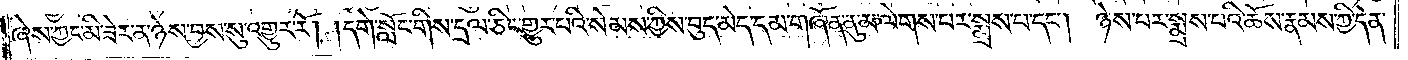ཞེས་ཀྱང་མི་ཟེར་ན་ཉེས་བྱས་སུ་འགྱུར་རོ། །དགེ་སློང་གིས་དྲལ་ཅིང་གྱུར་པའི་སེམས་ཀྱིས་བུད་མེད་དམ་གཞོན་ནུ་མ་ལེགས་པར་སྨྲས་པ་དང༌། ཉེས་པར་སྨྲས་པའི་ཆོས་རྣམས་ཀྱི་དོན་
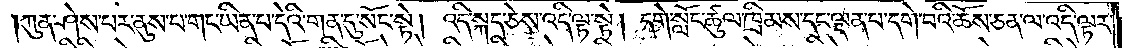ཀུན་ཤེས་པར་ནུས་པ་གང་ཡིན་པ་དེའི་གན་དུ་སོང་སྟེ། འདི་སྐད་ཅེས་འདི་ལྟ་སྟེ། དགེ་སློང་ཚུལ་ཁྲིམས་དང་ལྡན་པ་དགེ་བའི་ཆོས་ཅན་ལ་འདི་ལྟར་
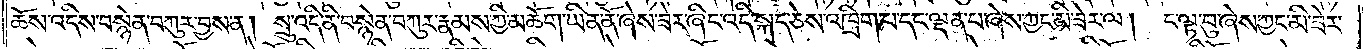ཆོས་འདི་བསྙེན་བཀུར་བྱས་ན། སྲུ་འདི་ནི་བསྙེན་བཀུར་རྣམས་ཀྱི་མཆོག་ཡིན་ནོ་ཞེས་ཟེར་ཞིང་འདི་སྐད་ཅེས་འཁྲིག་པ་དང་ལྡན་པ་ཞེས་ཀྱང་མི་ཟེར་ལ། ང་ལྟ་བུ་ཞེས་ཀྱང་མི་ཟེར་
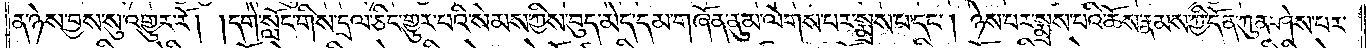ན་ཉེས་བྱས་སུ་འགྱུར་རོ། །དགེ་སློང་གིས་དྲལ་ཅིང་གྱུར་པའི་སེམས་ཀྱིས་བུད་མེད་དམ་གཞོན་ནུ་མ་ལེགས་པར་སྨྲས་པ་དང༌། ཉེས་པར་སྨྲས་པའི་ཆོས་རྣམས་ཀྱི་དོན་ཀུན་ཤེས་པར་
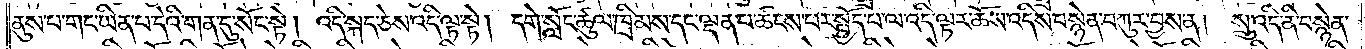ནུས་པ་གང་ཡིན་པ་དེའི་གན་དུ་སོང་སྟེ། འདི་སྐད་ཅེས་འདི་ལྟ་སྟེ། དགེ་སློང་ཚུལ་ཁྲིམས་དང་ལྡན་པ་ཚངས་པར་སྤྱོད་པ་ལ་འདི་ལྟར་ཆོས་འདིས་བསྙེན་བཀུར་བྱས་ན། སྲུ་འདི་ནི་བསྙེན་
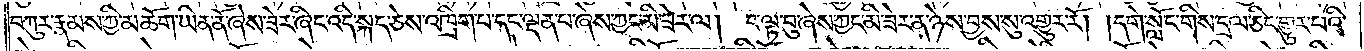བཀུར་རྣམས་ཀྱི་མཆོག་ཡིན་ནོ་ཞེས་ཟེར་ཞིང་འདི་སྐད་ཅེས་འཁྲིག་པ་དང་ལྡན་པ་ཞེས་ཀྱང་མི་ཟེར་ལ། ང་ལྟ་བུ་ཞེས་ཀྱང་མི་ཟེར་ན་ཉེས་བྱས་སུ་འགྱུར་རོ། །དགེ་སློང་གིས་དྲལ་ཅིང་གྱུར་པའི་
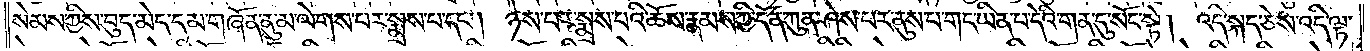སེམས་ཀྱིས་བུད་མེད་དམ་གཞོན་ནུ་མ་ལེགས་པར་སྨྲས་པ་དང༌། ཉེས་པར་སྨྲས་པའི་ཆོས་རྣམས་ཀྱི་དོན་ཀུན་ཤེས་པར་ནུས་པ་གང་ཡིན་པ་དེའི་གན་དུ་སོང་སྟེ། འདི་སྐད་ཅེས་འདི་ལྟ་
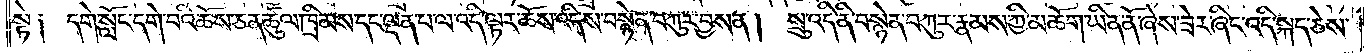སྟེ༑ དགེ་སློང་དགེ་བའི་ཆོས་ཅན་ཚུལ་ཁྲིམས་དང་ལྡན་པ་ལ་འདི་ལྟར་ཆོས་འདིས་བསྙེན་བཀུར་བྱས་ན།<gap>སྲུ་འདི་ནི་བསྙེན་བཀུར་རྣམས་ཀྱི་མཆོག་ཡིན་ནོ་ཞེས་ཟེར་ཞིང་འདི་སྐད་ཅེས་
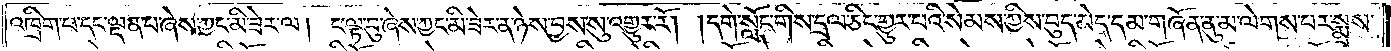འཁྲིག་པ་དང་ལྡན་པ་ཞེས་ཀྱང་མི་ཟེར་ལ། ང་ལྟ་བུ་ཞེས་ཀྱང་མི་ཟེར་ན་ཉེས་བྱས་སུ་འགྱུར་རོ། །དགེ་སློང་གིས་དྲལ་ཅིང་གྱུར་པའི་སེམས་ཀྱིས་བུད་མེད་དམ་གཞོན་ནུ་མ་ལེགས་པར་སྨྲས་
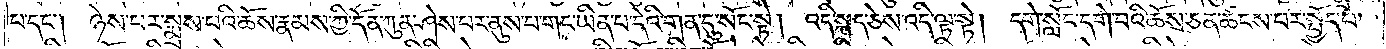པ་དང༌། ཉེས་པར་སྨྲས་པའི་ཆོས་རྣམས་ཀྱི་དོན་ཀུན་ཤེས་པར་ནུས་པ་གང་ཡིན་པ་དེའི་གན་དུ་སོང་སྟེ། འདི་སྐད་ཅེས་འདི་ལྟ་སྟེ། དགེ་སློང་དགེ་བའི་ཆོས་ཅན་ཚངས་པར་སྤྱོད་པ་
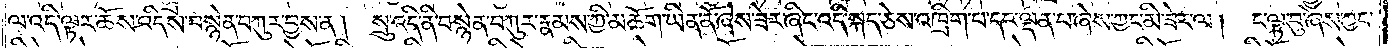ལ་འདི་ལྟར་ཆོས་འདིས་བསྙེན་བཀུར་བྱས་ན། སྲུ་འདི་ནི་བསྙེན་བཀུར་རྣམས་ཀྱི་མཆོག་ཡིན་ནོ་ཞེས་ཟེར་ཞིང་འདི་སྐད་ཅེས་འཁྲིག་པ་དང་ལྡན་པ་ཞེས་ཀྱང་མི་ཟེར་ལ། ང་ལྟ་བུ་ཞེས་ཀྱང་
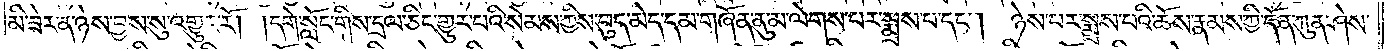མི་ཟེར་ན་ཉེས་བྱས་སུ་འགྱུར་རོ། །དགེ་སློང་གིས་དྲལ་ཅིང་གྱུར་པའི་སེམས་ཀྱིས་བུད་མེད་དམ་གཞོན་ནུ་མ་ལེགས་པར་སྨྲས་པ་དང༌། ཉེས་པར་སྨྲས་པའི་ཆོས་རྣམས་ཀྱི་དོན་ཀུན་ཤེས་
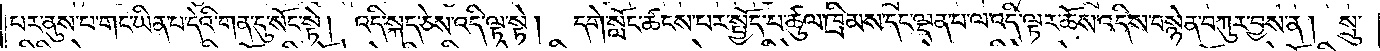པར་ནུས་པ་གང་ཡིན་པ་དེའི་གན་དུ་སོང་སྟེ། འདི་སྐད་ཅེས་འདི་ལྟ་སྟེ། དགེ་སློང་ཚངས་པར་སྤྱོད་པ་ཚུལ་ཁྲིམས་དང་ལྡན་པ་ལ་འདི་ལྟར་ཆོས་འདིས་བསྙེན་བཀུར་བྱས་ན། སྲུ་
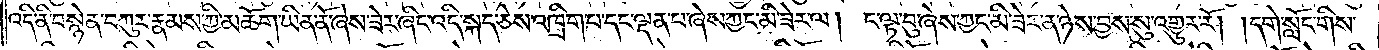འདི་ནི་བསྙེན་བཀུར་རྣམས་ཀྱི་མཆོག་ཡིན་ནོ་ཞེས་ཟེར་ཞིང་འདི་སྐད་ཅེས་འཁྲིག་པ་དང་ལྡན་པ་ཞེས་ཀྱང་མི་ཟེར་ལ། ང་ལྟ་བུ་ཞེས་ཀྱང་མི་ཟེར་ན་ཉེས་བྱས་སུ་འགྱུར་རོ། །དགེ་སློང་གིས་
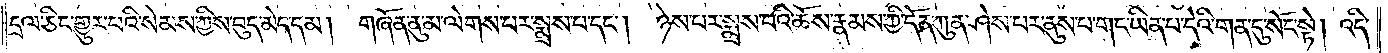དྲལ་ཅིང་གྱུར་པའི་སེམས་ཀྱིས་བུད་མེད་དམ། གཞོན་ནུ་མ་ལེགས་པར་སྨྲས་པ་དང༌། ཉེས་པར་སྨྲས་པའི་ཆོས་རྣམས་ཀྱི་དོན་ཀུན་ཤེས་པར་ནུས་པ་གང་ཡིན་པ་དེའི་གན་དུ་སོང་སྟེ། འདི་
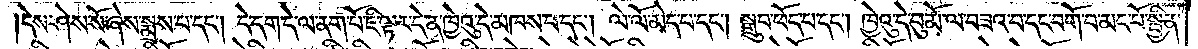དེས་ཤེས་སོ་ཞེས་སྨྲས་པ་དང༌། དེ་དག་དེ་ལ་ནག་པོ་ཇི་ལྟར་དེ་ན་ཁྱེའུ་དེ་མཁས་པ་དང༌། ལེ་ལོ་མེད་པ་དང༌། སྒྲུབ་ཕོད་པ་དང༌། ཁྱེའུ་དེ་བུ་མོ་ལ་བཟའ་བ་དང་བགོ་བ་མང་པོ་སྦྱིན་
